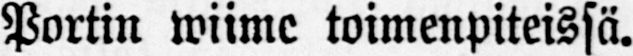Portin wiime toimenpiteissä.
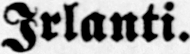Irlanti.
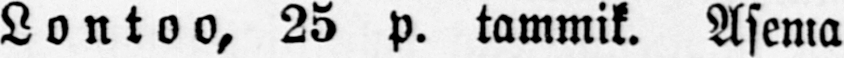Lontoo, 25 p. tammik. Asema
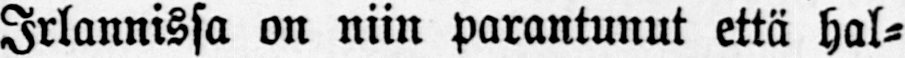Irlannissa on niin parantunut että hal-
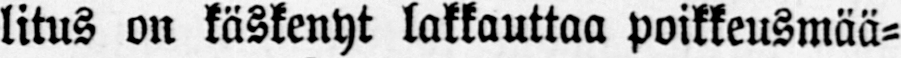litus on käskenyt lakkauttaa poikkeusmää-
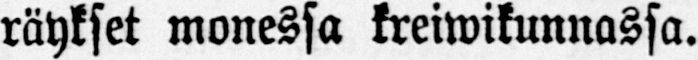räykset monessa kreiwikunnassa.
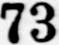73
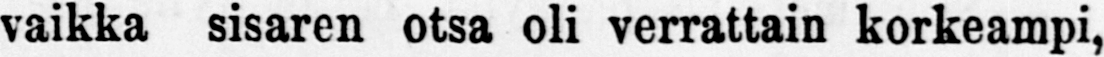vaikka sisaren otsa oli verrattain korkeampi,
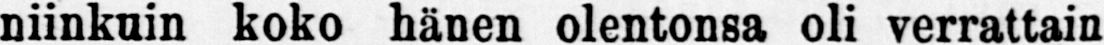niinkuin koko hänen olentonsa oli verrattain
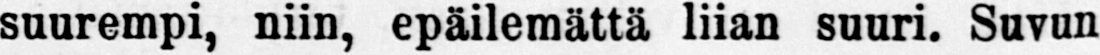suurempi, niin, epäilemättä liian suuri. Suvun
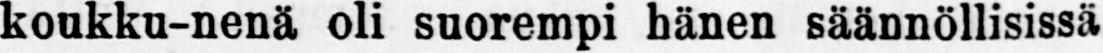koukku-nenä oli suorempi hänen säännöllisissä
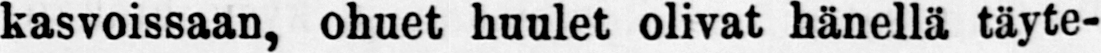kasvoissaan, ohuet huulet olivat hänellä täyte-
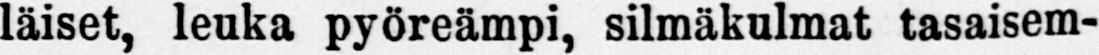läiset, leuka pyöreämpi silmäkulmat tasaisem-
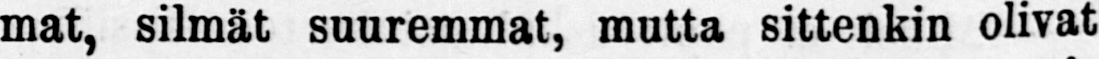mat, silmät suuremmat, mutta sittenkin olivat
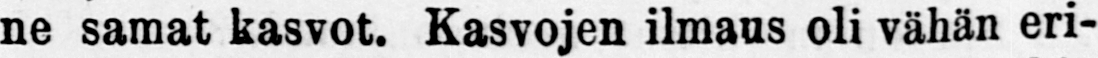ne samat kasvot, Kasvojen ilmaus oli vähän eri-
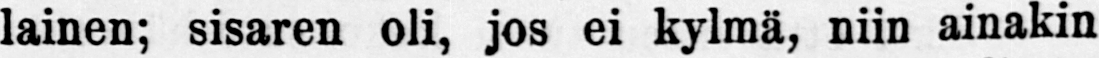lainen; sisaren oli, jos ei kylmä, niin ainakin
